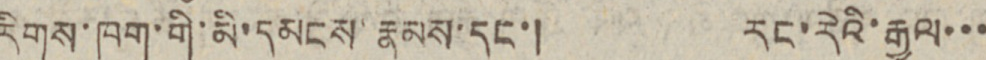རིགས་ཁག་གི་མི་དམངས་རྣམས་དང་། རང་རེའི་རྒྱལ་་་
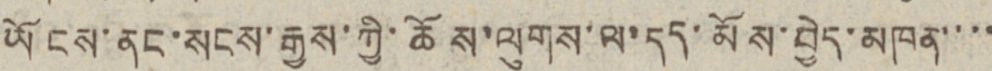ཡོངས་ནང་སངས་རྒྱས་ཀྱི་ཆོས་ལུགས་ལ་དད་མོས་བྱེད་མཁན་་་་
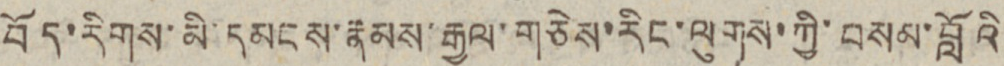བོད་རིགས་མི་དམངས་རྣམས་རྒྱལ་གཅེས་རིང་ལུགས་ཀྱི་བསམ་བློའི
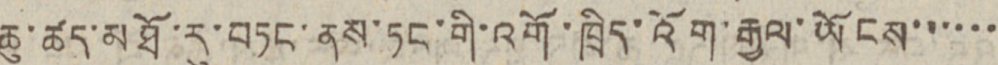ཆུ་ཚད་མཐོ་རུ་བཏང་ནས་ཏང་གི་འགོ་ཁྲིད་འོག་རྒྱལ་ཡོངས་་་་་་
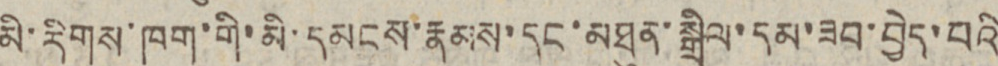མི་རིགས་ཁག་གི་མི་དམངས་རྣམས་དང་མཐུན་སྒྲིལ་དམ་ཟབ་བྱེད་པའི
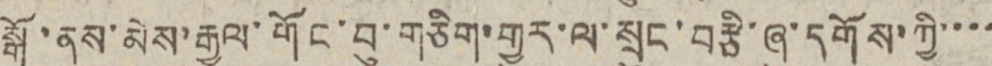སྒོ་ནས་མེས་རྒྱལ་གོང་བུ་གཅིག་གྱུར་ལ་སྲུང་བརྩི་ཞུ་དགོས་ཀྱི་་་་
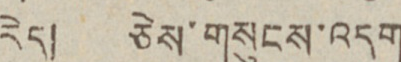རེད། ཅེས་གསུངས་འདུག
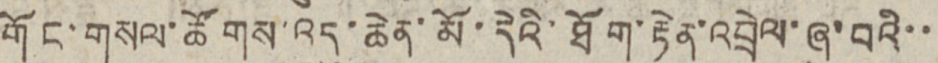གོང་གསལ་ཚོགས་འདུ་ཆེན་མོ་དེའི་ཐོག་རྟེན་འབྲེལ་ཞུ་བའི་་
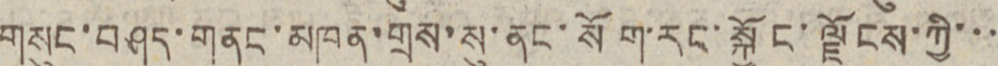གསུང་བཤད་གནང་མཁན་གྲས་སུ་ནང་སོག་རང་སྐྱོང་ལྗོངས་ཀྱི་་་
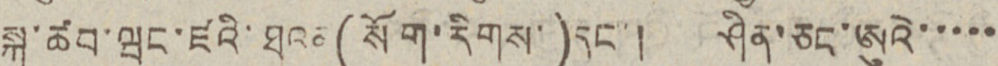སྐུ་ཚབ་ཝང་ཛའི་ཐའན(སོག་རིགས་)དང་། ཤིན་ཅང་ཨུའེ་་་་་
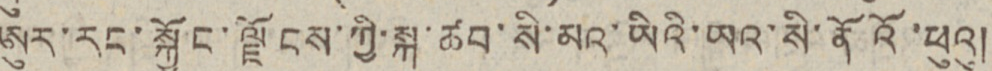ཨུར་རང་སྐྱོང་ལྗོངས་ཀྱི་སྐུ་ཚབ་སི་མའ་ཡིའི་ཡའ་སི་ནོའོ་ཕུའུ།
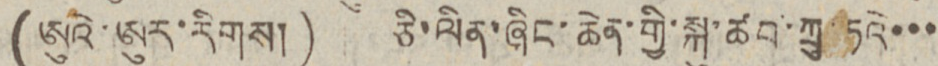(ཨུའེ་ཨུར་རིགས།) ཅི་ལིན་ཞིང་ཆེན་གྱི་སྐུ་ཚབ་ཀྲུ ཏའེ་་་
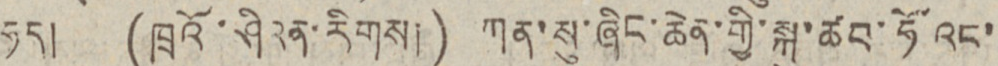ཧད། (ཁྲའོ་ཤིའན་རིགས།) ཀན་སུ་ཞིང་ཆེན་གྱི་སྐུ་ཚབ་ཧོའང་
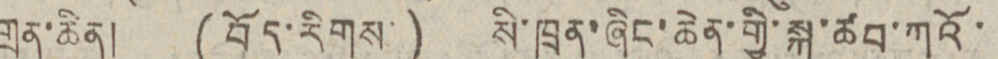གྲན་ཆིན། (བོད་རིགས་) སི་ཁྲུན་ཞིང་ཆེན་གྱི་སྐུ་ཚབ་ཀའོ་
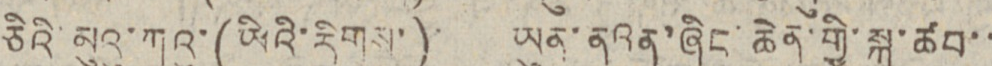ཅིའི་མུའུ་ཀུའུ་(ཡིའི་རིགས་) ཡུན་ནའན་ཞིང་ཆེན་གྱི་སྐུ་ཚབ་་
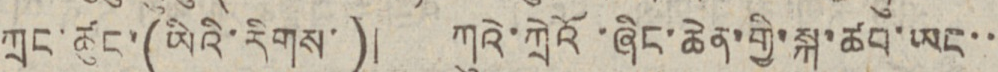ཀྲང་ཚུང་(ཡིའི་རིགས་) ཀུའེ་ཀྲེའོ་ཞིང་ཆེན་གྱི་སྐུ་ཚབ་ཡང་་
